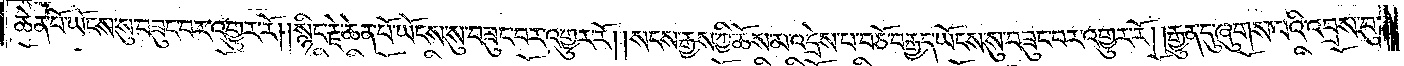ཆེན་པོ་ཡོངས་སུ་བཟུང་བར་འགྱུར་རོ། །སྙིང་རྗེ་ཆེན་པོ་ཡོངས་སུ་བཟུང་བར་འགྱུར་རོ། །སངས་རྒྱས་ཀྱི་ཆོས་མ་འདྲེས་པ་བཅོ་བརྒྱད་ཡོངས་སུ་བཟུང་བར་འགྱུར་རོ། །རྒྱུན་དུ་ཞུགས་པའི་འབྲས་བུ་
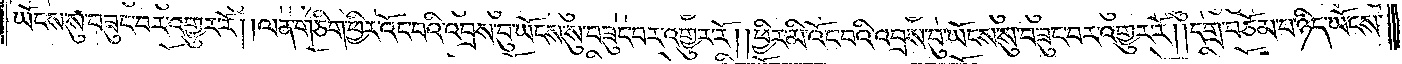ཡོངས་སུ་བཟུང་བར་འགྱུར་རོ། །ལན་གཅིག་ཕྱིར་འོང་བའི་འབྲས་བུ་ཡོངས་སུ་བཟུང་བར་འགྱུར་རོ། །ཕྱིར་མི་འོང་བའི་འབྲས་བུ་ཡོངས་སུ་བཟུང་བར་འགྱུར་རོ། །དགྲ་བཅོམ་པ་ཉིད་ཡོངས་
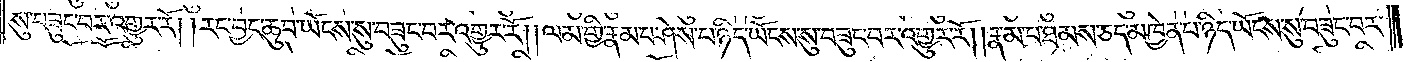སུ་བཟུང་བར་འགྱུར་རོ། །རང་བྱང་ཆུབ་ཡོངས་སུ་བཟུང་བར་འགྱུར་རོ། །ལམ་གྱི་རྣམ་པ་ཤེས་པ་ཉིད་ཡོངས་སུ་བཟུང་བར་འགྱུར་རོ། །རྣམ་པ་ཐམས་ཅད་མཁྱེན་པ་ཉིད་ཡོངས་སུ་བཟུང་བར་
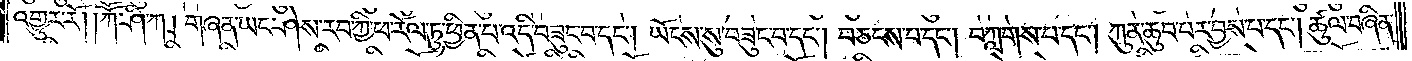འགྱུར་རོ། །ཀཽ་ཤི་ཀ། གཞན་ཡང་ཤེས་རབ་ཀྱི་ཕ་རོལ་ཏུ་ཕྱིན་པ་འདི་བཟུང་བ་དང༌། ཡོངས་སུ་བཟུང་བ་དང༌། བཅངས་པ་དང༌། བཀླགས་པ་དང༌། ཀུན་ཆུབ་པར་བྱས་པ་དང༌། ཚུལ་བཞིན་
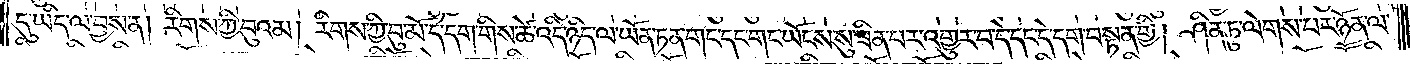དུ་ཡིད་ལ་བྱས་ན། རིགས་ཀྱི་བུ་འམ། རིགས་ཀྱི་བུ་མོ་དེ་དག་གིས་ཚེ་འདི་ཉིད་ལ་ཡོན་ཏན་གང་དང་གང་ཡོངས་སུ་ཟིན་པར་འགྱུར་བ་དེ་དང་དེ་དག་བསྟན་གྱི། ཤིན་ཏུ་ལེགས་པར་ཉོན་ལ་
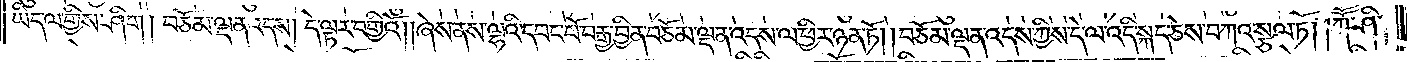ཡིད་ལ་གྱིས་ཤིག། བཅོམ་ལྡན་འདས། དེ་ལྟར་བགྱིའོ། ཞེས་ནས་ལྷའི་དབང་པོ་བརྒྱ་བྱིན་བཅོམ་ལྡན་འདས་ལ་ཕྱིར་ཉན་ཏོ། །བཅོམ་ལྡན་འདས་ཀྱིས་དེ་ལ་འདི་སྐད་ཅེས་བཀའ་སྩལ་ཏོ། །ཀཽ་ཤི་
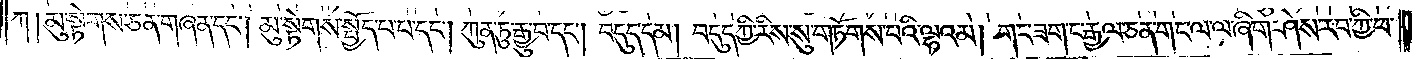ཀ། མུ་སྟེགས་ཅན་གཞན་དང༌། མུ་སྟེགས་སྤྱོད་པ་པ་དང༌། ཀུན་ཏུ་རྒྱུ་བ་དང༌། བདུད་དམ། བདུད་ཀྱི་རིས་སུ་གཏོགས་པའི་ལྷའམ། གང་ཟག་ང་རྒྱལ་ཅན་གང་ལ་ལ་ཞིག་ཤེས་རབ་ཀྱི་ཕ་
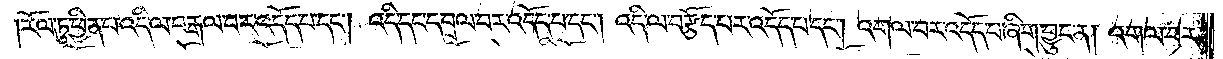རོལ་ཏུ་ཕྱིན་པ་འདི་ལ་བརྒལ་བར་འདོད་པ་དང༌། འདི་དང་དབྲལ་བར་འདོད་པ་དང༌། འདི་ལ་བརྩད་པར་འདོད་པ་དང༌། འགལ་བར་འདོད་པ་ཞིག་བྱུང་ན། འགལ་བར་
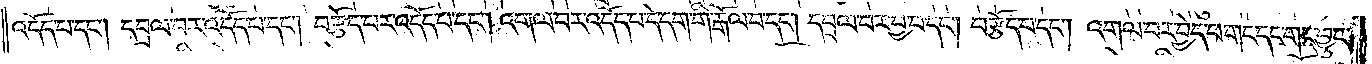འདོད་པ་དང༌། དབྲལ་བར་འདོད་པ་དང༌། བརྩད་པར་འདོད་པ་དང༌། འགལ་བར་འདོད་པ་དེ་དག་གི་རྒོལ་བ་དང༌། དབྲལ་བར་བྱ་བ་དང༌། བརྩད་པ་དང༌། འགལ་བར་བྱེད་པ་གང་དང་གང་བྱུང་
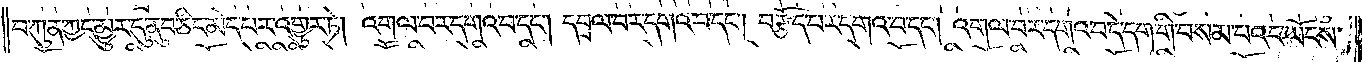བ་ཀུན་ཀྱང་མྱུར་དུ་ནུབ་ཅིང་མེད་པར་འགྱུར་ཏེ། འགལ་བར་དགའ་བ་དང༌། དབྲལ་བར་དགའ་བ་དང༌། བརྩད་པར་དགའ་བ་དང༌། འགལ་བར་དགའ་བ་དེ་དག་གི་བསམ་པའང་ཡོངས་
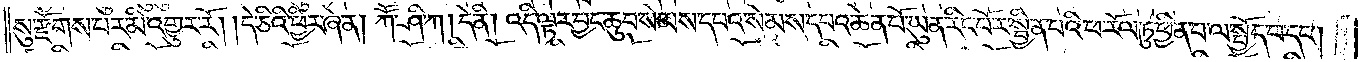སུ་རྫོགས་པར་མི་འགྱུར་རོ། །དེ་ཅིའི་ཕྱིར་ཞེ་ན། ཀཽ་ཤི་ཀ། དེ་ནི། འདི་ལྟར་བྱང་ཆུབ་སེམས་དཔའ་སེམས་དཔའ་ཆེན་པོ་ཡུན་རིང་པོར་སྦྱིན་པའི་ཕ་རོལ་ཏུ་ཕྱིན་པ་ལ་སྤྱོད་པ་དང༌།
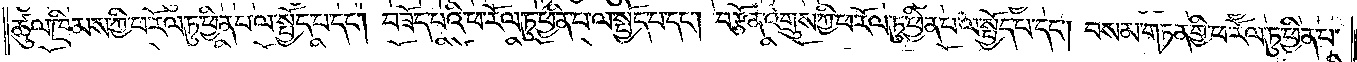ཚུལ་ཁྲིམས་ཀྱི་ཕ་རོལ་ཏུ་ཕྱིན་པ་ལ་སྤྱོད་པ་དང༌། བཟོད་པའི་ཕ་རོལ་ཏུ་ཕྱིན་པ་ལ་སྤྱོད་པ་དང༌། བརྩོན་འགྲུས་ཀྱི་ཕ་རོལ་ཏུ་ཕྱིན་པ་ལ་སྤྱོད་པ་དང༌། བསམ་གཏན་གྱི་ཕ་རོལ་ཏུ་ཕྱིན་པ་
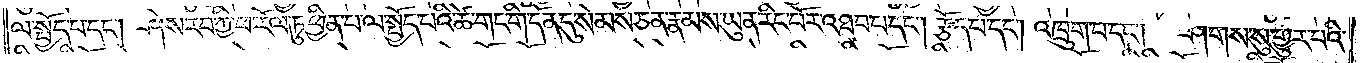ལ་སྤྱོད་པ་དང༌། ཤེས་རབ་ཀྱི་ཕ་རོལ་ཏུ་ཕྱིན་པ་ལ་སྤྱོད་པའི་ཚེ་གང་གི་དོན་དུ་སེམས་ཅན་རྣམས་ཡུན་རིང་པོར་འཐབ་པ་དང༌། རྩོད་པ་དང༌། འཁྲུག་པ་དང༌། ཤགས་སུ་གྱུར་པའི་
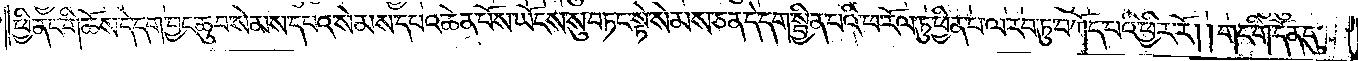ཕྱི་ནང་གི་ཆོས་དེ་དག་བྱང་ཆུབ་སེམས་དཔའ་སེམས་དཔའ་ཆེན་པོས་ཡོངས་སུ་བཏང་སྟེ་སེམས་ཅན་དེ་དག་སྦྱིན་པའི་ཕ་རོལ་ཏུ་ཕྱིན་པ་ལ་རབ་ཏུ་བཀོད་པའི་ཕྱིར་རོ། །གང་གི་དོན་དུ་
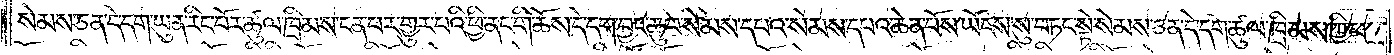སེམས་ཅན་དེ་དག་ཡུན་རིང་པོར་ཚུལ་ཁྲིམས་ངན་པར་གྱུར་པའི་ཕྱི་ནང་གི་ཆོས་དེ་དག་བྱང་ཆུབ་སེམས་དཔའ་སེམས་དཔའ་ཆེན་པོས་ཡོངས་སུ་བཏང་སྟེ་སེམས་ཅན་དེ་དག་ཚུལ་ཁྲིམས་ཀྱི་ཕ་
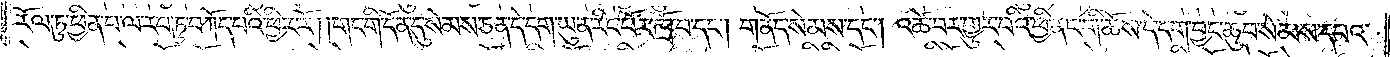རོལ་ཏུ་ཕྱིན་པ་ལ་རབ་ཏུ་བཀོད་པའི་ཕྱིར་རོ། །གང་གི་དོན་དུ་སེམས་ཅན་དེ་དག་ཡུན་རིང་པོར་ཁྲོ་བ་དང༌། གནོད་སེམས་དང༌། འཚེ་བར་གྱུར་པའི་ཕྱི་ནང་གི་ཆོས་དེ་དག་བྱང་ཆུབ་སེམས་དཔའ་
